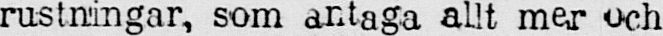rustningar, som antaga allt mer och
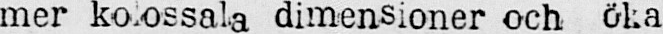mer kolossala dimensioner och öka
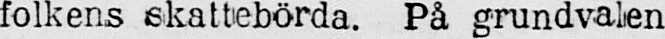folkens skattebörda. På grundvalen
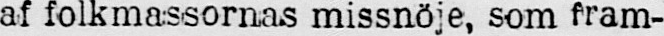af folkmassornas missnöje, som fram-
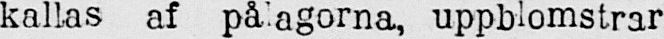kallas af pålagorna, uppblomstrar
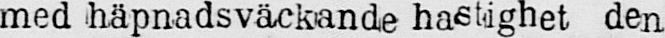med häpnadsväckande hastighet den
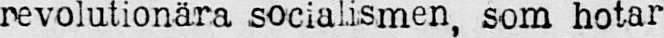revolutionära socialismen, som hotar
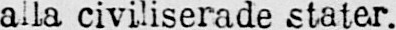alla civiliserade stater.
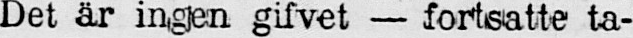Det är ingen gifvet — fortsatte ta-
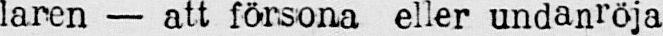laren — att försona eller undanröja
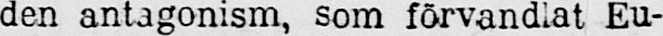den antagonism, som förvandlat Eu-
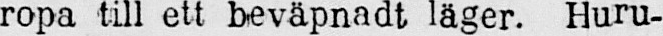ropa till ett beväpnadt läger. Huru-
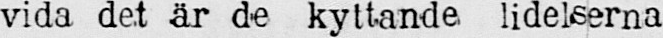vida det är de kyttande lidelserna
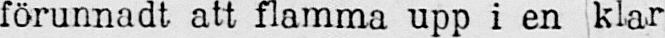förunnadt att flamma upp i en klar
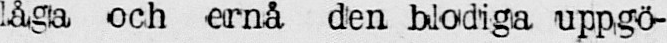låga och ernå den blodiga uppgö-
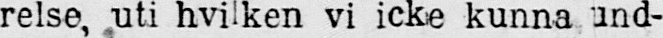relse, uti hvilken vi icke kunna und-
